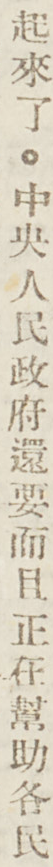起來了。中央人民政府還要而且正在幫助各民
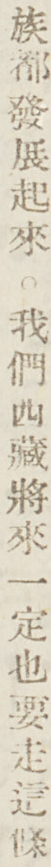族都發展起來。我們西藏將來一定也要走這條
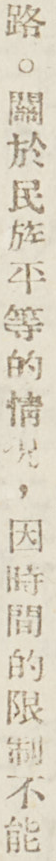路。關於民族平等的情況，因時間的限制不能
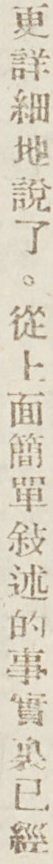更詳細地說了。從上面簡單敍述的事實裏已經
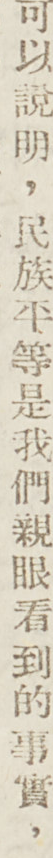可以說明，民族平等是我們親眼看到的事實，
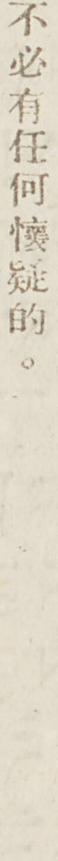不必有任何懷疑的。
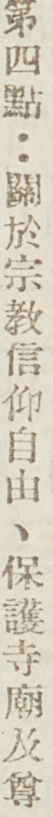第四點：關於宗教信仰自由、保護寺廟及尊
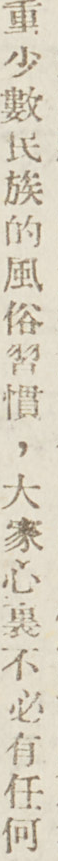重少數民族的風俗習慣，大家心裏不必有任何
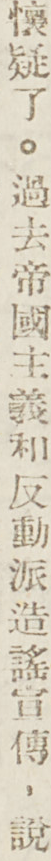懷疑了。過去帝國主義和反動派造謠宣傳，說
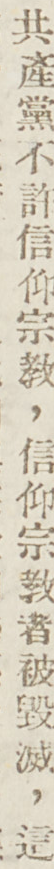共產黨不許信仰宗教，信仰宗教者被毀滅，這
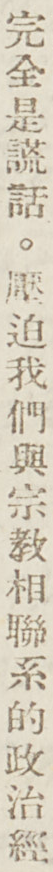完全是謊話。壓迫我們與宗教相聯繫的政治經
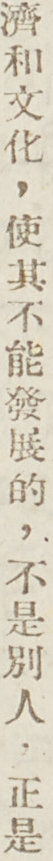濟和文化，使其不能發展的，不是別人，正是
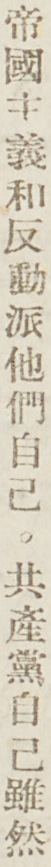帝國主義和反動派他們自己。共產黨自己雖然
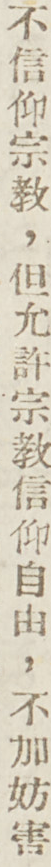不信仰宗教，但允許宗教信仰自由，不加妨害
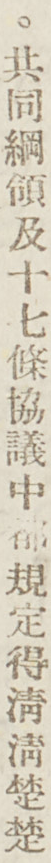。共同綱領及十七條協議重都規定得清清楚楚
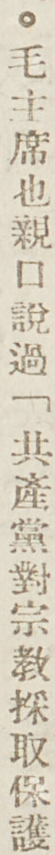。毛主席也親口說過「共產黨對宗教採取保護
